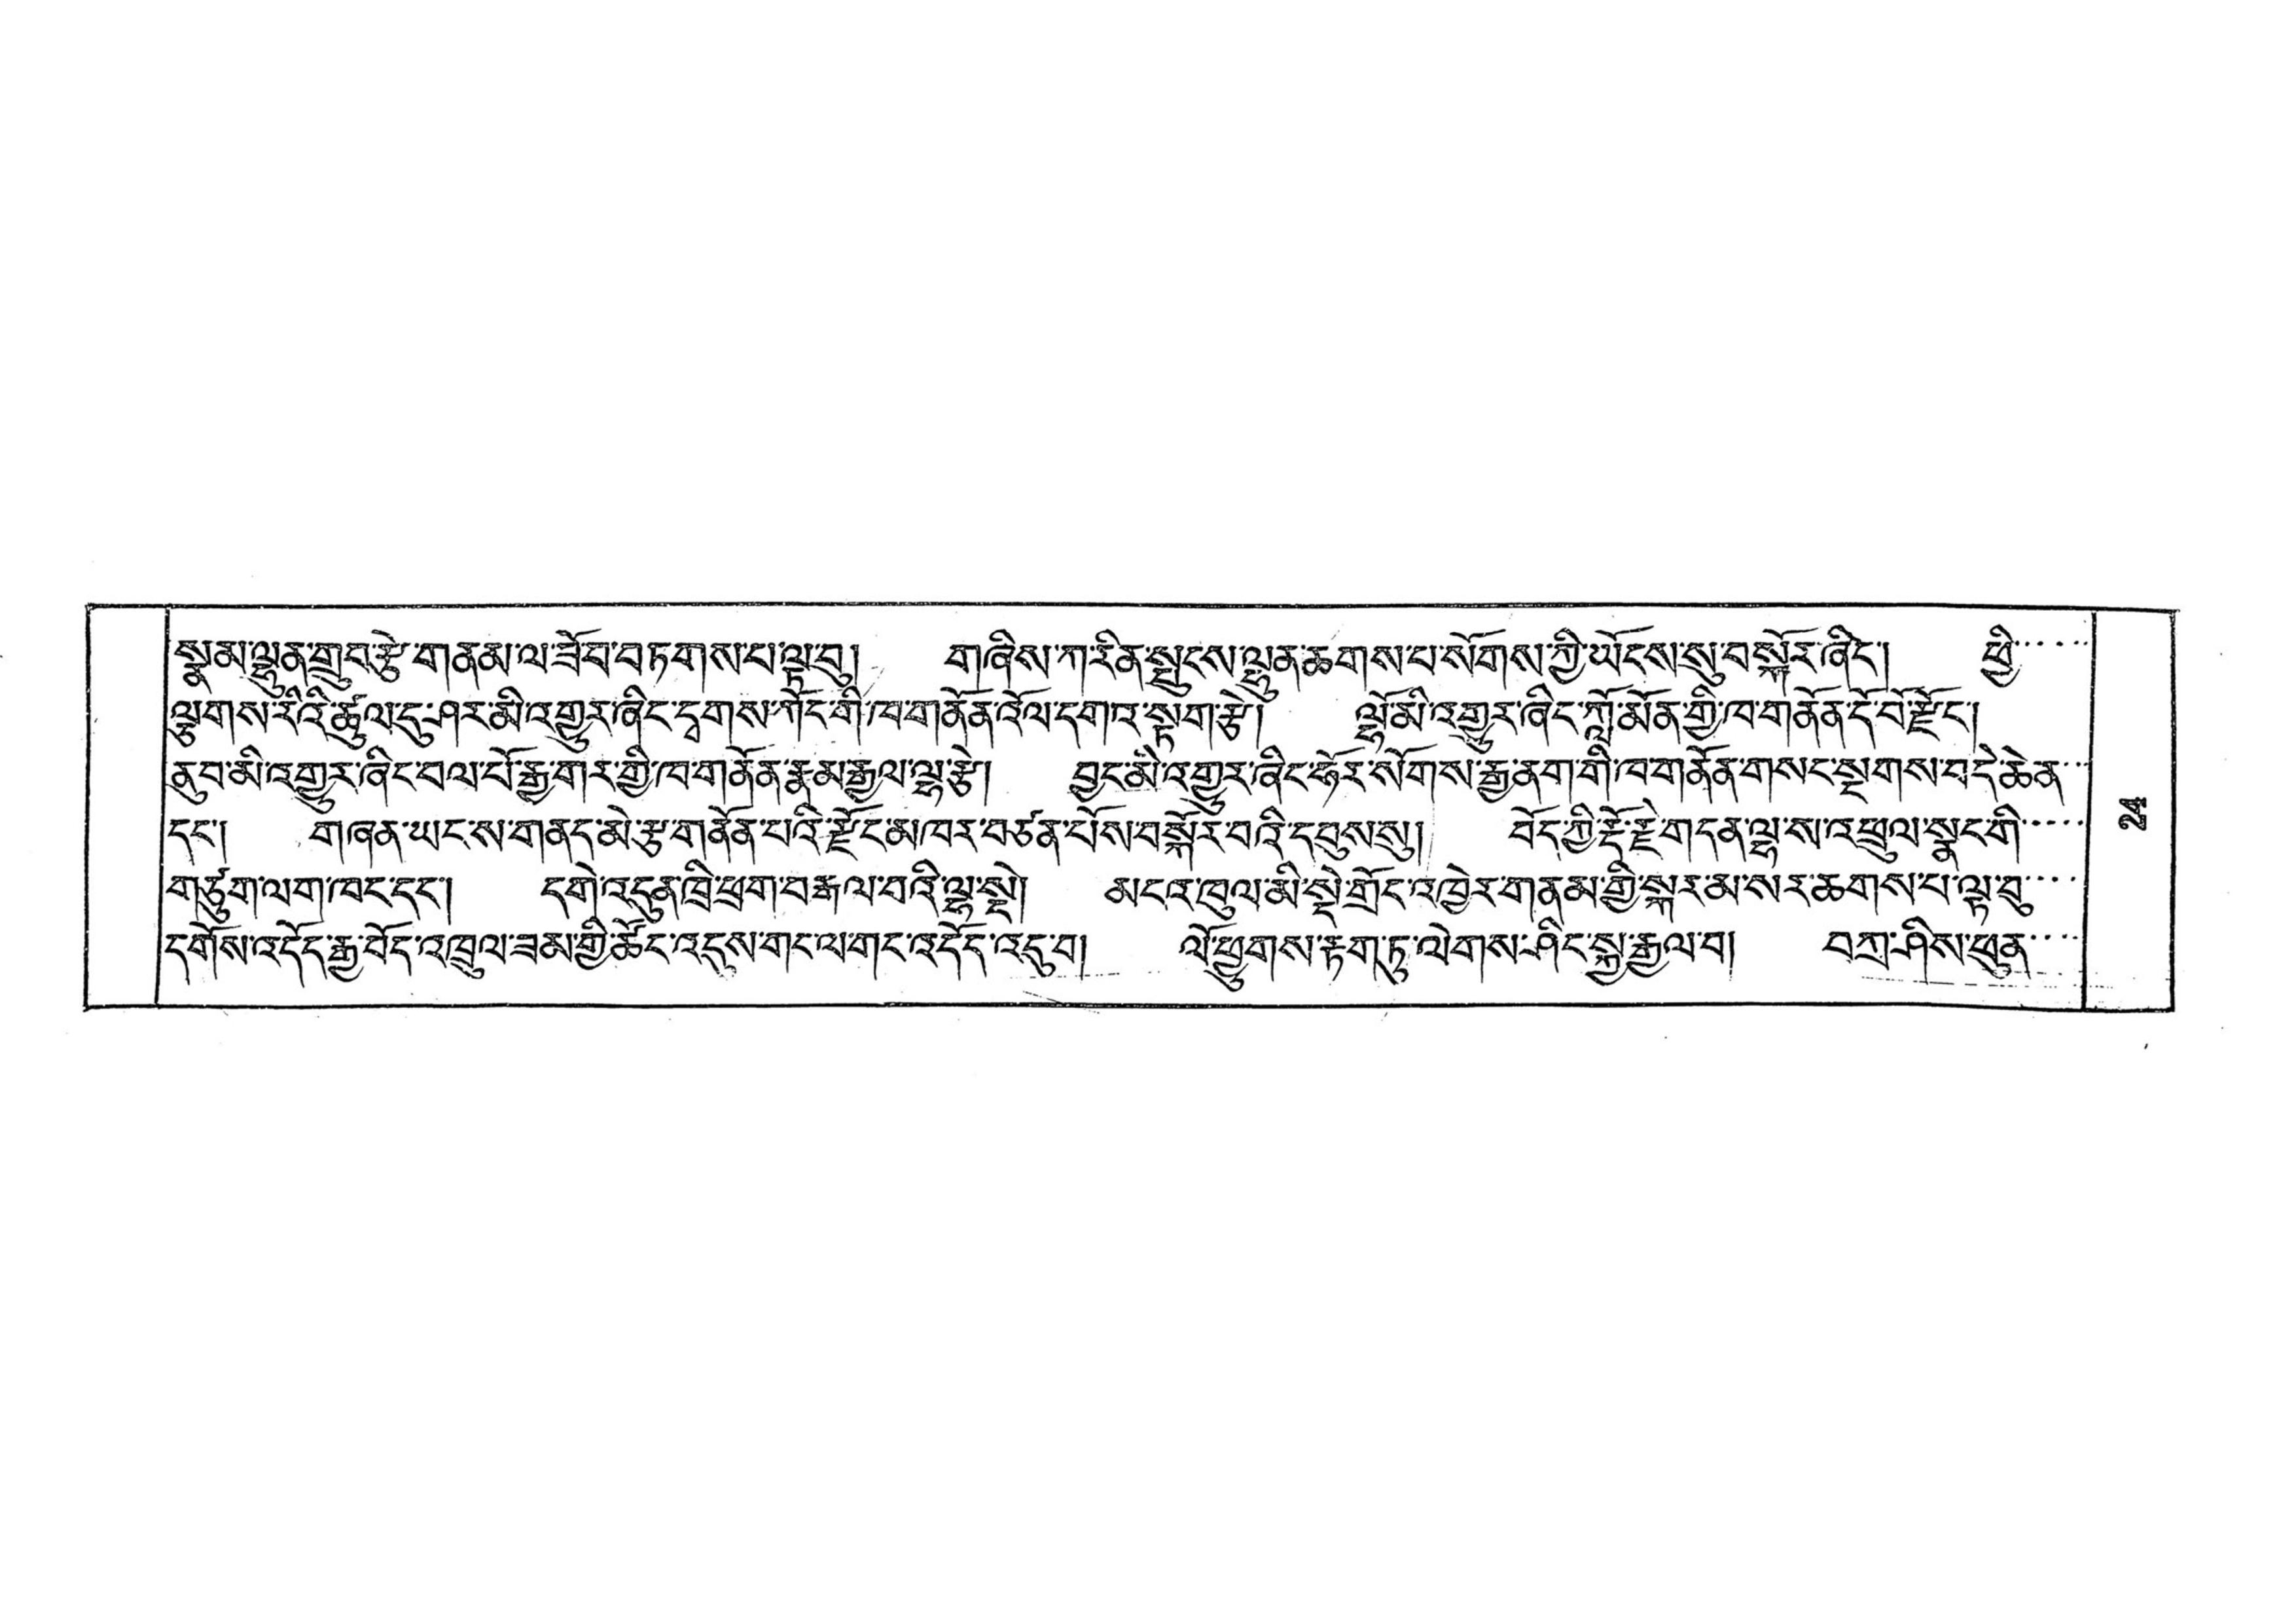སྣམ་ལྷུན་གྲུབ་རྩེ་གནམ་ལ་ཟོབ་བཏགས་པ་ལྟ་བུ། གཞིས་ཀ་རིན་སྤངས་ལྷུན་ཆགས་པ་སོགས་ཀྱི་ཡོངས་སུ་བསྐོར་ཞིང་། ཕྱི་་་་་་
ལྕགས་རིའི་ཚུལ་དུ་ཤར་མི་འགྱུར་ཞིང་དྭགས་ཀོང་གི་ཁ་གནོན་འོལ་དགའ་སྟག་རྩེ། ལྷོ་མི་འགྱུར་ཞིང་ཀློ་མོན་གྱི་ཁ་གནོན་དོ་བོ་རྫོང་།
ནུབ་མི་འགྱུར་ཞིང་བལ་པོ་རྒྱ་གར་གྱི་ཁ་གནོན་རྣམ་རྒྱལ་ལྷ་རྩེ། བྱང་མི་འགྱུར་ཞིང་ཧོར་སོགས་རྒྱ་ནག་གི་ཁ་གནོན་གསང་སྔགས་བདེ་ཆེན་་་
དང་། གཞན་ཡང་ས་གནད་མེ་རྩ་གནོན་པའི་རྫོང་མཁར་བཙན་པོས་བསྐོར་བའི་དབུས་སུ། བོད་ཀྱི་རྡོ་རྗེ་གདན་ལྷ་ས་འཕྲུལ་སྣང་གི་་་་
གཙུག་ལག་ཁང་དང་། དགེ་འདུན་ཁྲི་ཕྲག་བརྒལ་བའི་ལྷ་སྡེ། མངའ་ཁུལ་མི་སྡེ་གྲོང་འཁྱེར་གནམ་གྱི་སྐར་མ་སར་ཆགས་པ་ལྟ་བུ་་་་
དགོས་འདོད་རྒྱ་བོད་འཁྲུལ་ཟམ་གྱི་ཚོང་འདུས་གང་ལ་གང་འདོད་འདུ་བ། ལོ་ཕྱུགས་རྟག་ཏུ་ལེགས་ཤིང་སྐྱ་རྒྱལ་བ། བཀྲ་ཤིས་ཕུན་་་
